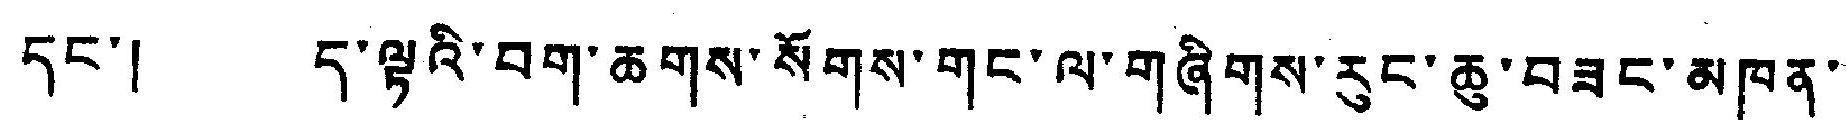དང་། ད་ལྟའི་བག་ཆགས་སོགས་གང་ལ་གཞིགས་རུང་ཆུ་བཟང་མཁན་
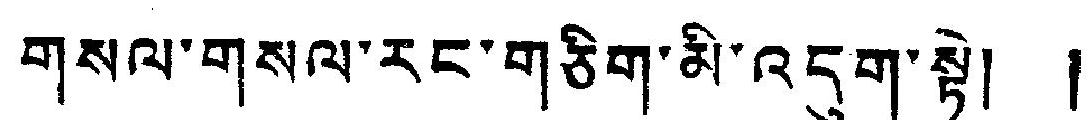གསལ་གསལ་རང་གཅིག་མི་འདུག་སྟེ། །
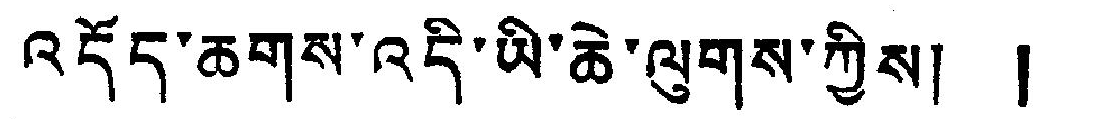འདོད་ཆགས་འདི་ཡི་ཆེ་ལུགས་ཀྱིས། །
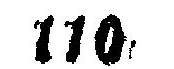110
